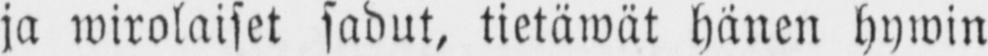ja wirolaiset sadut, tietäwät hänen hywin
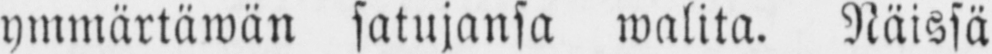ymmärtäwän satujansa walita. Näissä
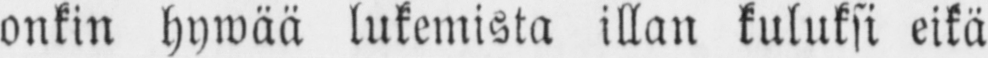onkin hywää lukemista illan kuluksi eikä
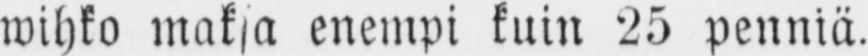wihko maksa enempi kuin 25 penniä.
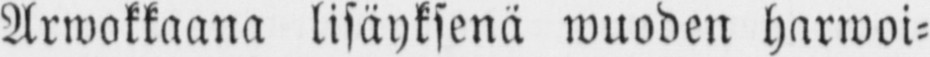Arwokkaana lisäyksenä wuoden harwoi-
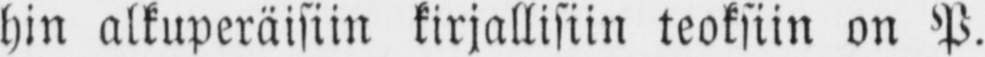hin alkuperäisiin kirjallisiin teoksiin on P.
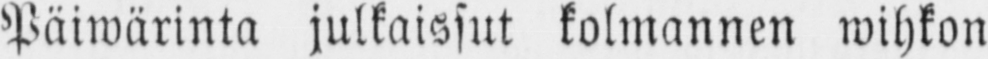Päiwärinta julkaissut kolmannen wihkon
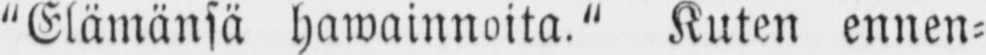"Elämänsä hawainnoita." Kuten ennen-
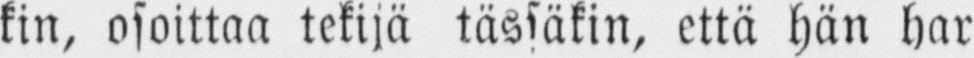kin, osoittaa tekijä tässäkin, että hän har-
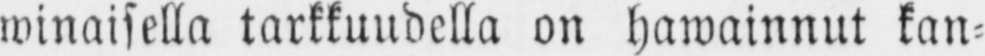winaisella tarkkuudella on hawainnut kan-
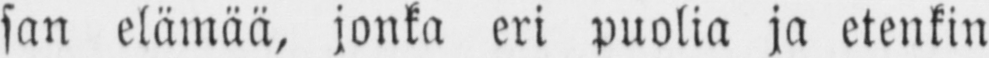san elämää, jonka eri puolia ja etenkin
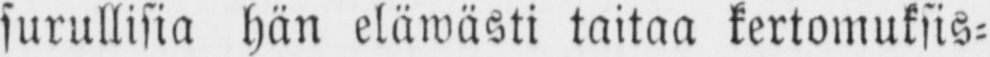surullisia hän eläwästi taitaa kertomuksis-
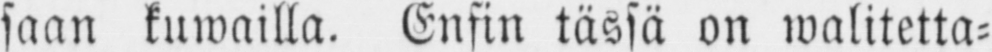saan kuwailla. Ensin tässä on walitetta-
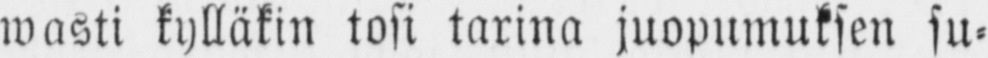wasti kylläkin tosi tarina juopumuksen su-
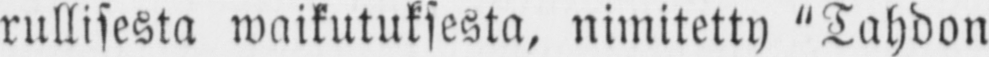rullisesta waikutuksesta, nimitetty "Tahdon
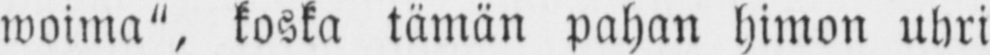woima", koska tämän pahan himon uhri
